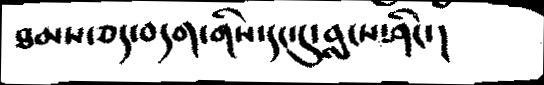ཐམས་ཅད་བདག་གིས་དང་དུ་བླངས་ཤིང་།
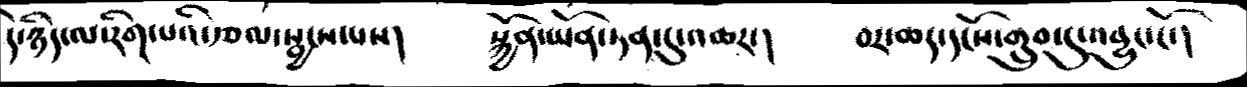དེ་ཉིད་ལ་རིག་པའི་རྩལ་སྦྱངས་པས།    སྐྱོན་ཡོན་ཏན་དུ་འཆར་།     བར་ཆད་དངོས་གྲུབ་དུ་འབྱུང་ངོ་།
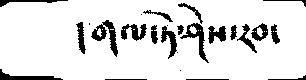།གལ་ཏེ་ཤེས་རབ་
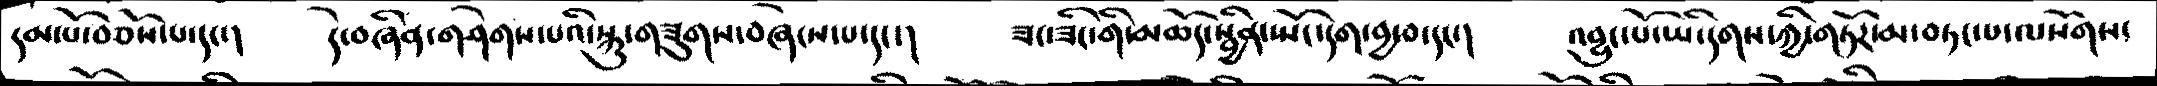དམ་པོ་བཅོས་པ་དང་།   དེ་བཞིན་གཤེགས་པའི་སྐུ་གཟུགས་བཞེངས་པ་དང་།    ཟང་ཟིང་གི་མཆོད་སྦྱིན་ཡོང་དག་བྱ་བ་དང་།   འབྱུང་པོ་ཡི་དགས་ཀྱི་གཏོར་མ་བཏང་པ་ལསོགས་
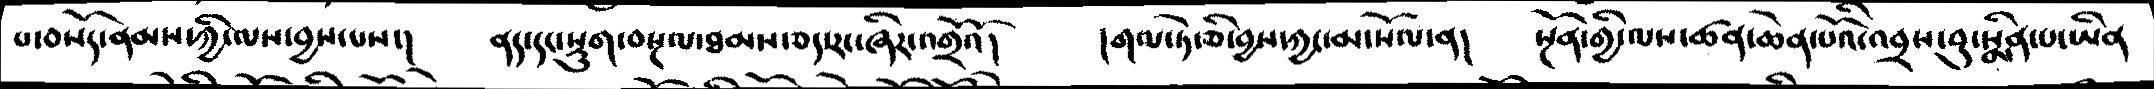བ་བསོད་ནམས་ཀྱི་ལས་བྱས་པས་།   ནད་དང་སྡུག་བསྔལ་ཐམས་ཅད་རང་ཞིར་འགྲོའོ།   །གལ་ཏེ་ཅི་བྱས་ཀྱང་མ་སོལ་ན།   སྔོན་གྱི་ལས་ཚན་ཆེན་པོའི་འབྲས་བུ་སྨིན་པ་ཡིན
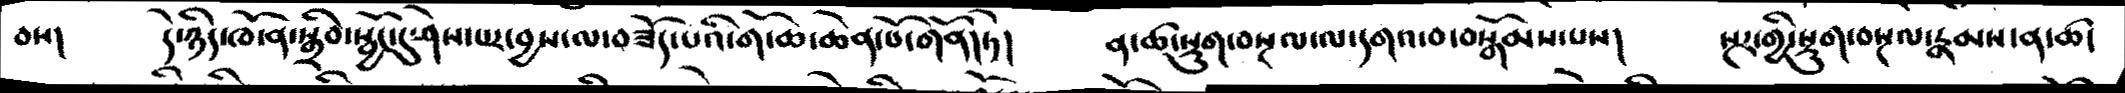བས།    དེ་ཉིད་ཁོ་ན་སྒྲིབ་སྦྱོང་དུ་ཤེས་པར་བྱས་ལ་བཟོད་པའི་གོ་ཆ་ཆེན་པོ་གནོད་ཏེ།    ན་ཚ་སྡུག་བསྔལ་ལ་དགའ་བ་བསྒོམས་པས།       སྔར་གྱི་སྡུག་བསྔལ་རྣམས་ན་ཚ་
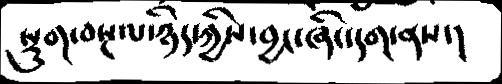སྡུག་བསྔལ་ཉིད་ཀྱིས་བྱང་ཞིང་དག་ནས་།
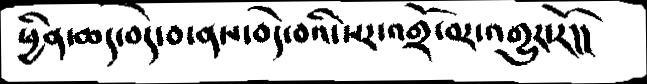ཕྱིན་ཆད་བདེ་བ་ནས་བདེ་བའི་སར་འགྲོ་བར་འགྱུར་རོ།།
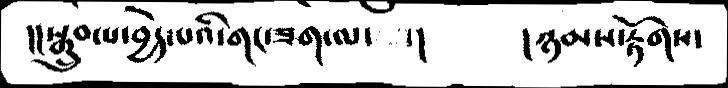།། སྒྲུབ་པ་བྱེད་པའི་གང་ཟག་ལ་ ་།   །ཉམས་རྟོག་
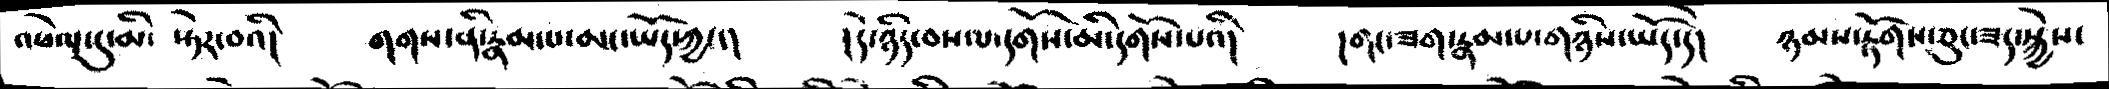འཕེལ་དུ་མི་སྟེར་བའི།    གགས་ནི་རྣམ་པ་མང་ཡོད་ཀྱང་།    ། དེ་ཉིད་བསལ་དགོས་མི་དགོས་པའི།        །གང་ཟག་རྣམ་པ་གཉིས་ཡོད་དེ།   ཉམས་རྟོགས་ཅུང་ཟད་སྐྱེས་
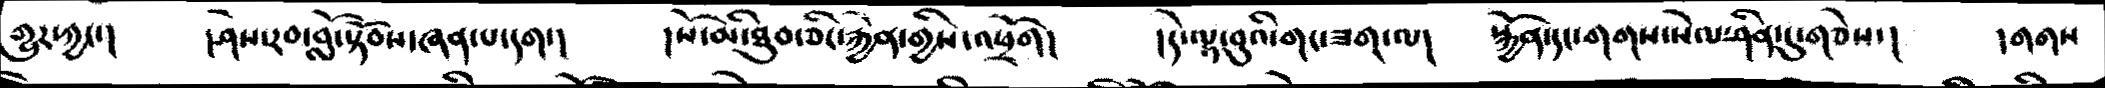གྱུར་ཀྱང་།   །ཤེས་རབ་བློ་སྟོབས་ཞན་པ་དག་།     ། སོ་མི་ཐུབ་ཅིང་རྐྱེན་གྱིས་འཕྲོག།   །དེ་ལྟ་བུའི་གང་ཟག་ལ།   སྐྱོན་དང་གགས་སེལ་ཤིན་དུ་གཅེས།   གགས་
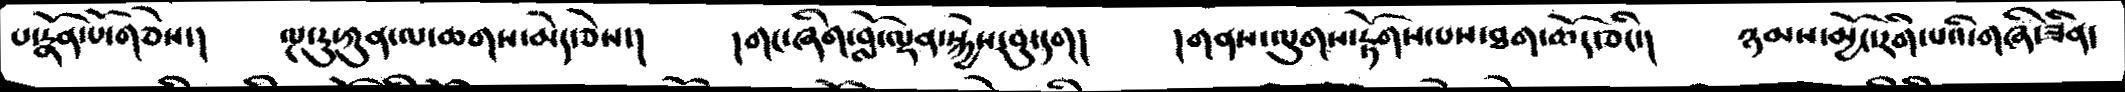པ་རྣོན་པོ་གཅེས་།   ལྔ་རུ་ཀུན་ལ་ཆགས་མེད་ཅེས་།    །གང་ཞིག་བློ་ལྡན་སྐྱེས་བུ་དག།   །གནས་ལུགས་རྟོགས་པས་ཐག་ཆོད་ཅིང་།   ཉམས་མྱོང་རིག་པའི་གཞི་ཟིན་
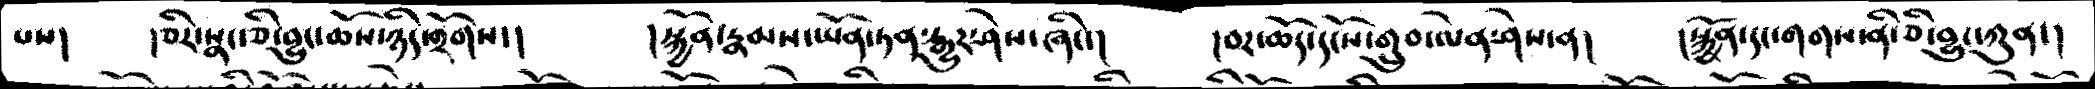པས།   །ཅིར་སྣང་ཅི་བྱུང་ཆོས་ཉིད་གྲོགས་།       །སྐྱོན་རྣམས་ཡོན་ཏན་རྒྱུར་ཤེས་ཞིང་།    །བར་ཆོད་དངོས་གྲུབ་ལེན་ཤེས་ན།     །སྐྱོན་དང་གགས་ནི་ཅི་བྱུང་ཀུན་།
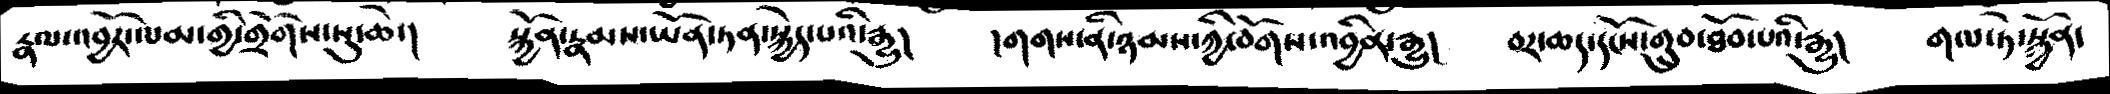རྣལ་འབྱོར་ལམ་གྱི་གྲོགས་སུ་ཆེ་།     སྐྱོན་རྣམས་ཡོན་ཏན་སྐྱེད་པའི་རྒྱུད     །གགས་ནི་ཉམས་ཀྱི་བོགས་འབྱིན་རྒྱུ།    བར་ཆད་དངོས་གྲུབ་ཐོབ་པའི་རྒྱུ།   གལ་ཏེ་སྐྱོན་
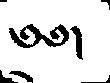༅།
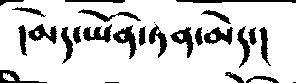།མེད་ཡོན་ཏན་མེད་།
